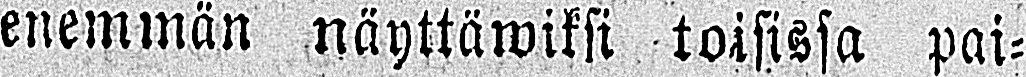enemmän näyttäwiksi toisissa pai-
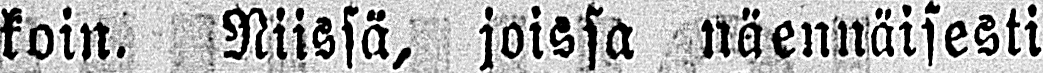koin. Niissä, joissa näennäisesti
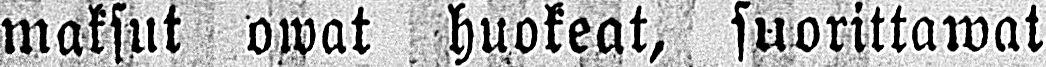maksut owat huokeat, suorittawat
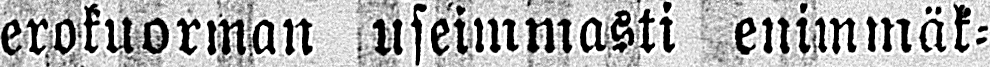werokuorman useimmasti enimmäk-
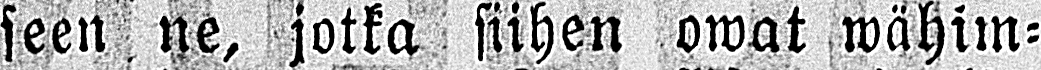seen ne, jotka siihen owat wähim-
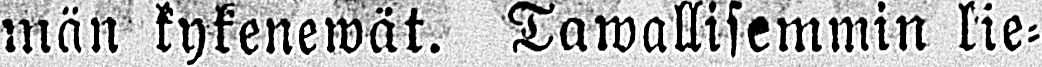män kykenewät. Tawallisemmin lie-
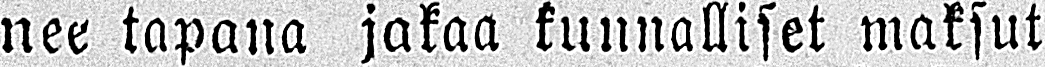nee tapana jakaa kunnalliset maksut
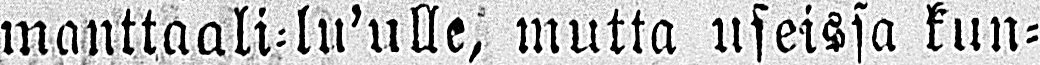manttaali-lu'ulle, mutta useissa kun-
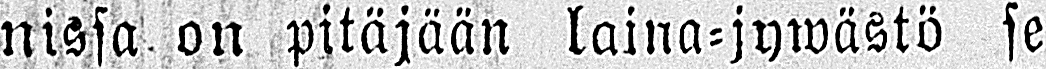nissa on pitäjään laina-jywästö se
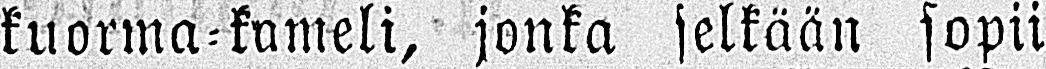kuorma-kameli, jonka selkään sopii
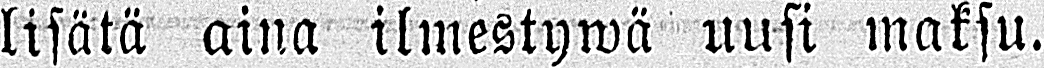lisätä aina ilmestywä uusi maksu.
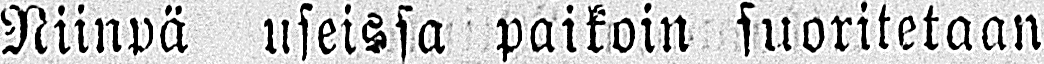Niinpä useissa paikoin suoritetaan
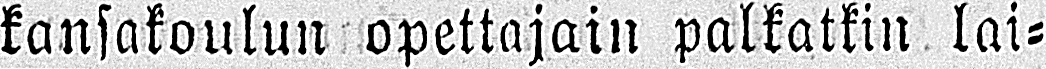kansakoulun opettajain palkatkin lai-
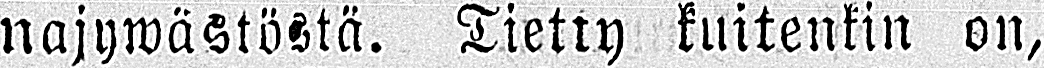najywästöstä. Tietty kuitenkin on,
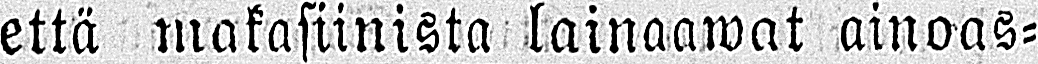että makasiinista lainaawat ainoas-
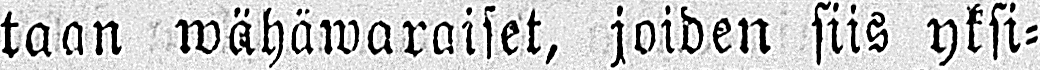taan wähäwaraiset, joiden siis yksi-
